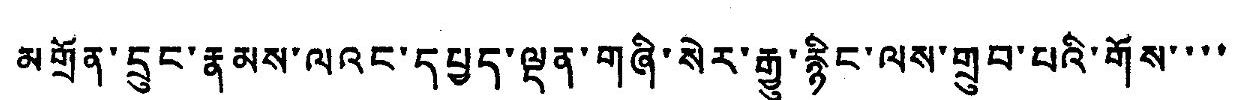མགྲོན་དྲུང་རྣམས་ལའང་དཔྱད་ལྡན་གཞི་སེར་རྒྱུ་རྙིང་ལས་གྲུབ་པའི་གོས་་་་
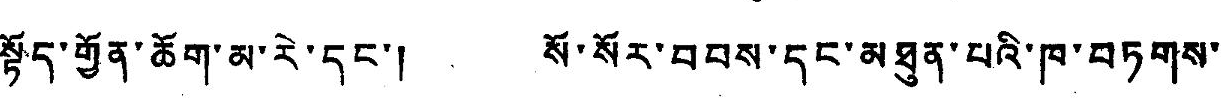སྟོད་གྱོན་ཆོག་མ་རེ་དང་། སོ་སོར་བབས་དང་མཐུན་པའི་ཁ་བཏགས་
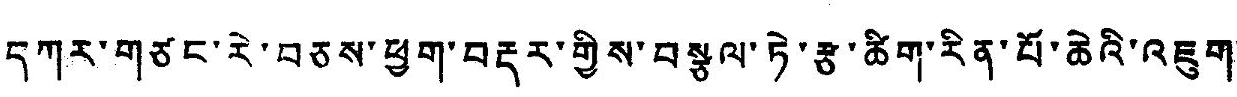དཀར་གཙང་རེ་བཅས་ཕྱག་བརྡར་གྱིས་བསྩལ་ཏེ་རྩ་ཚིག་རིན་པོ་ཆེའི་འཇུག་
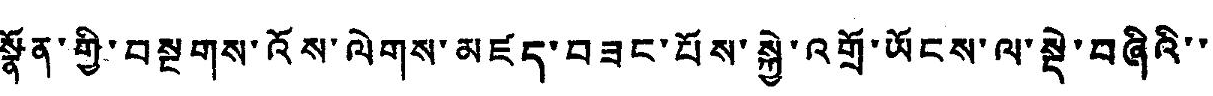སྣོན་གྱི་བསྔགས་འོས་ལེགས་མཛད་བཟང་པོས་སྐྱེ་འགྲོ་ཡོངས་ལ་སྡེ་བཞིའི་་
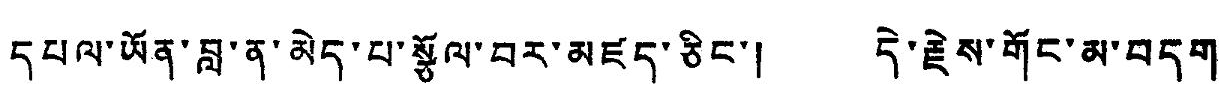དཔལ་ཡོན་བླ་ན་མེད་པ་སྩོལ་བར་མཛད་ཅིང་། དེ་རྗེས་གོང་མ་བདག་
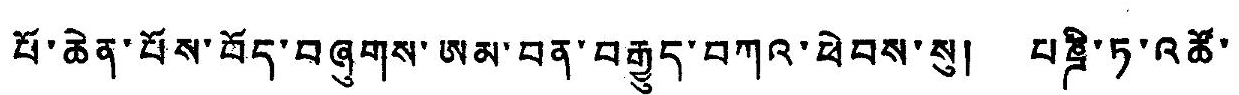པོ་ཆེན་པོས་བོད་བཞུགས་ཨམ་བན་བརྒྱུད་བཀའ་ཕེབས་སུ། པཎྜི་ཏ་འཚོ་
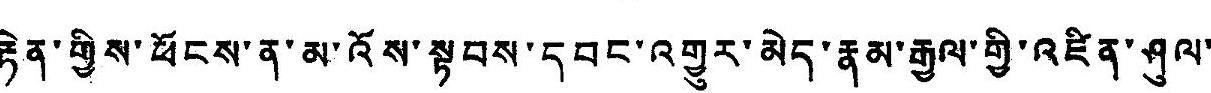རྟེན་གྱིས་ཕོངས་ན་མ་འོས་སྟབས་དབང་འགྱུར་མེད་རྣམ་རྒྱལ་གྱི་འཛིན་ཤུལ་
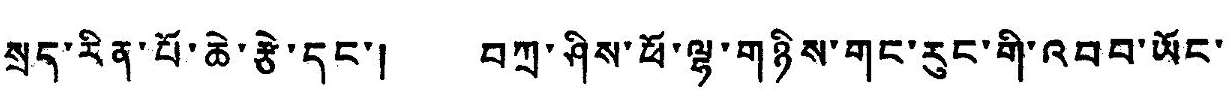སྲད་རིན་པོ་ཆེ་རྩེ་དང་། བཀྲ་ཤིས་ཕོ་ལྷ་གཉིས་གང་རུང་གི་འབབ་ཡོང་
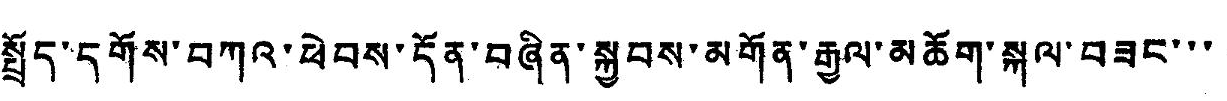སྤྲོད་དགོས་བཀའ་ཕེབས་དོན་བཞིན་སྐྱབས་མགོན་རྒྱལ་མཆོག་སྐལ་བཟང་་་
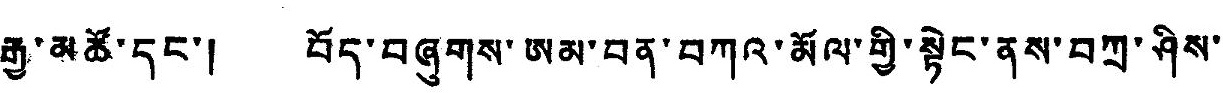རྒྱ་མཚོ་དང་། བོད་བཞུགས་ཨམ་བན་བཀའ་མོལ་གྱི་སྟེང་ནས་བཀྲ་ཤིས་
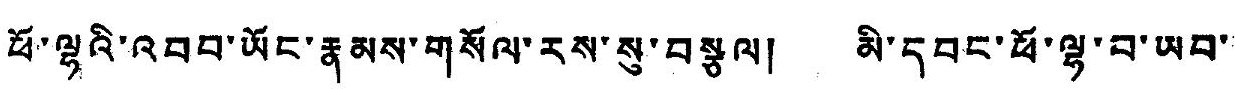ཕོ་ལྷའི་འབབ་ཡོང་རྣམས་གསོལ་རས་སུ་བསྩལ། མི་དབང་ཕོ་ལྷ་བ་ཡབ་
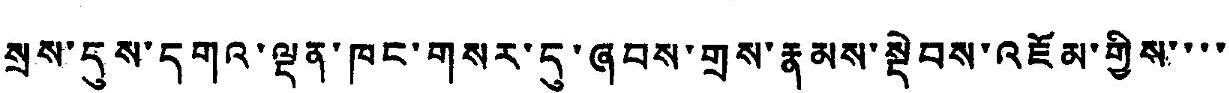སྲས་དུས་དགའ་ལྡན་ཁང་གསར་དུ་ཞབས་གྲས་རྣམས་སྡེབས་འཛོམ་གྱིས་་་་
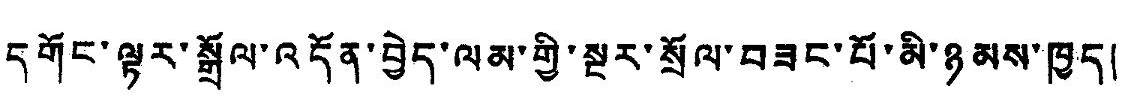དགོང་ལྟར་སྒྲོལ་འདོན་བྱེད་ལམ་གྱི་སྔར་སྲོལ་བཟང་པོ་མི་ཉམས་ཁྱད།
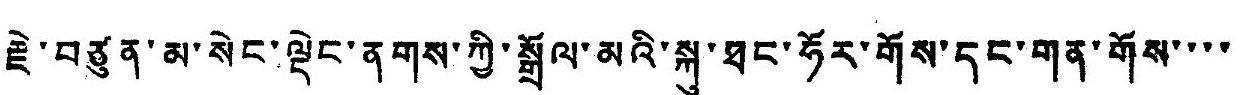རྗེ་བཙུན་མ་སེང་ལྡེང་ནགས་ཀྱི་སྒྲོལ་མའི་སྐུ་ཐང་ཧོར་གོས་དང་གན་གོས་་་་
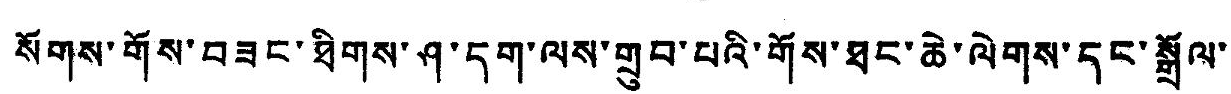སོགས་གོས་བཟང་ཐིགས་ཤ་དག་ལས་གྲུབ་པའི་གོས་ཐང་ཆེ་ལེགས་དང་སྒྲོལ་
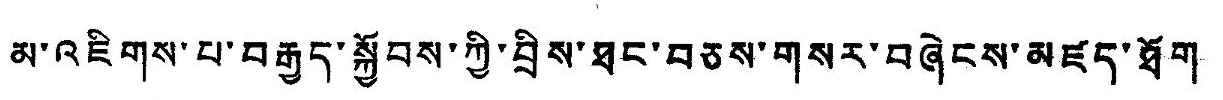མ་འཇིགས་པ་བརྒྱད་སྐྱོབས་ཀྱི་བྲིས་ཐང་བཅས་གསར་བཞེངས་མཛད་ཐོག
